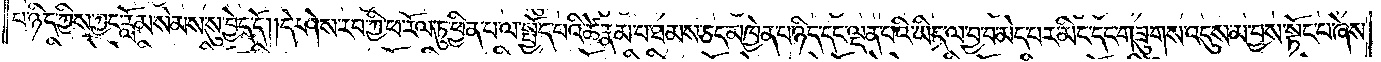པ་ཉིད་ཀྱིས་ཀྱང་རློམ་སེམས་སུ་བྱེད་དོ། །དེ་ཤེས་རབ་ཀྱི་ཕ་རོལ་ཏུ་ཕྱིན་པ་ལ་སྤྱོད་པའི་ཚེ་རྣམ་པ་ཐམས་ཅད་མཁྱེན་པ་ཉིད་དང་ལྡན་པའི་ཡིད་ལ་བྱ་བ་མེད་པར་མིང་དང་གཟུགས་འདུས་མ་བྱས་སྟོང་པ་ཞེས་
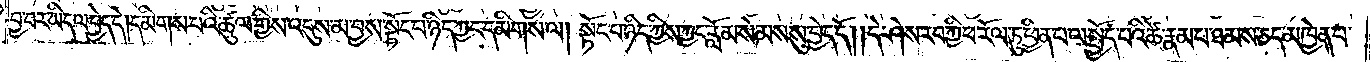བྱ་བར་ཡིད་ལ་བྱེད་དེ། དམིགས་པའི་ཚུལ་གྱིས་འདུས་མ་བྱས་སྟོང་པ་ཉིད་ཀྱང་དམིགས་ལ། སྟོང་པ་ཉིད་ཀྱིས་ཀྱང་རློམ་སེམས་སུ་བྱེད་དོ། །དེ་ཤེས་རབ་ཀྱི་ཕ་རོལ་ཏུ་ཕྱིན་པ་ལ་སྤྱོད་པའི་ཚེ་རྣམ་པ་ཐམས་ཅད་མཁྱེན་པ་
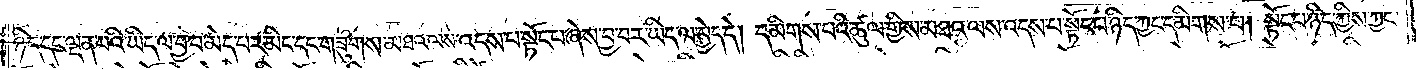ཉིད་དང་ལྡན་པའི་ཡིད་ལ་བྱ་བ་མེད་པར་མིང་དང་གཟུགས་མཐའ་ལས་འདས་པ་སྟོང་པ་ཞེས་བྱ་བར་ཡིད་ལ་བྱེད་དེ། དམིགས་པའི་ཚུལ་གྱིས་མཐའ་ལས་འདས་པ་སྟོང་པ་ཉིད་ཀྱང་དམིགས་པ། སྟོང་པ་ཉིད་ཀྱིས་ཀྱང་
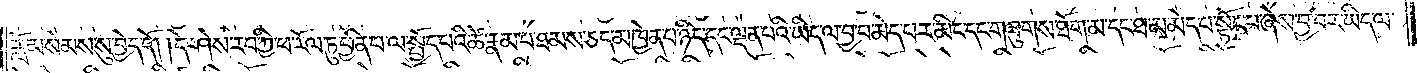རློམ་སེམས་སུ་བྱེད་དོ། །དེ་ཤེས་རབ་ཀྱི་ཕ་རོལ་ཏུ་ཕྱིན་པ་ལ་སྤྱོད་པའི་ཚེ་རྣམ་པ་ཐམས་ཅད་མཁྱེན་པ་ཉིད་དང་ལྡན་པའི་ཡིད་ལ་བྱ་བ་མེད་པར་མིང་དང་གཟུགས་ཐོག་མ་དང་ཐ་མ་མེད་པ་སྟོང་པ་ཞེས་བྱ་བར་ཡིད་ལ་
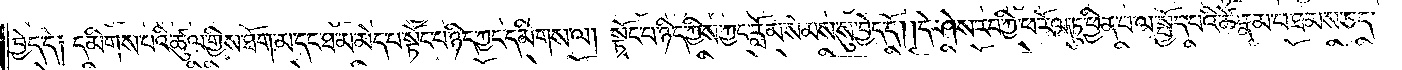བྱེད་དེ༑ དམིགས་པའི་ཚུལ་གྱིས་ཐོག་མ་དང་ཐ་མ་མེད་པ་སྟོང་པ་ཉིད་ཀྱང་དམིགས་ལ། སྟོང་པ་ཉིད་ཀྱིས་ཀྱང་རློམ་སེམས་སུ་བྱེད་དོ། །དེ་ཤེས་རབ་ཀྱི་ཕ་རོལ་ཏུ་ཕྱིན་པ་ལ་སྤྱོད་པའི་ཚེ་རྣམ་པ་ཐམས་ཅད་
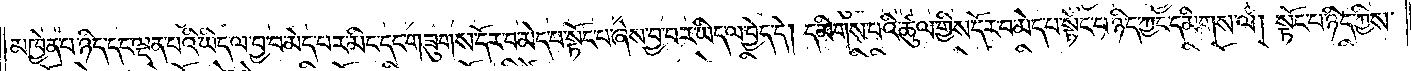མཁྱེན་པ་ཉིད་དང་ལྡན་པའི་ཡིད་ལ་བྱ་བ་མེད་པར་མིང་དང་གཟུགས་དོར་བ་མེད་པ་སྟོང་པ་ཞེས་བྱ་བར་ཡིད་ལ་བྱེད་དེ། དམིགས་པའི་ཚུལ་གྱིས་དོར་བ་མེད་པ་སྟོང་པ་ཉིད་ཀྱང་དམིགས་ལ། སྟོང་པ་ཉིད་ཀྱིས་
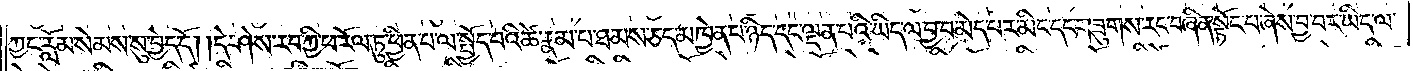ཀྱང་རློམ་སེམས་སུ་བྱེད་དོ། །དེ་ཤེས་རབ་ཀྱི་ཕ་རོལ་ཏུ་ཕྱིན་པ་ལ་སྤྱོད་པའི་ཚེ་རྣམ་པ་ཐམས་ཅད་མཁྱེན་པ་ཉིད་དང་ལྡན་པའི་ཡིད་ལ་བྱ་བ་མེད་པར་མིང་དང་གཟུགས་རང་བཞིན་སྟོང་པ་ཞེས་བྱ་བར་ཡིད་ལ་
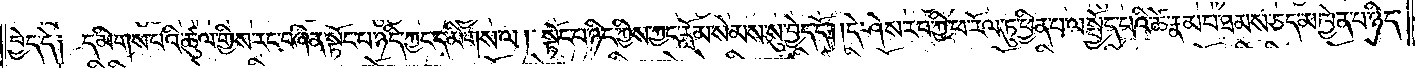བྱེད་དེ། དམིགས་པའི་ཚུལ་གྱིས་རང་བཞིན་སྟོང་པ་ཉིད་ཀྱང་དམིགས་ལ། སྟོང་པ་ཉིད་ཀྱིས་ཀྱང་རློམ་སེམས་སུ་བྱེད་དོ། །དེ་ཤེས་རབ་ཀྱི་ཕ་རོལ་ཏུ་ཕྱིན་པ་ལ་སྤྱོད་པའི་ཚེ་རྣམ་པ་ཐམས་ཅད་མཁྱེན་པ་ཉིད་
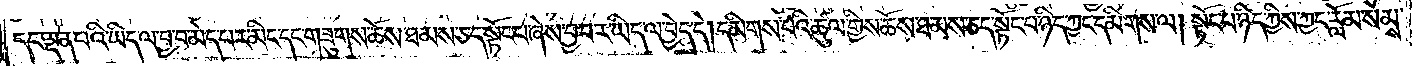དང་ལྡན་པའི་ཡིད་ལ་བྱ་བ་མེད་པར་མིང་དང་གཟུགས་ཆོས་ཐམས་ཅད་སྟོང་པ་ཞེས་བྱ་བར་ཡིད་ལ་བྱེད་དེ། དམིགས་པའི་ཚུལ་གྱིས་ཆོས་ཐམས་ཅད་སྟོང་པ་ཉིད་ཀྱང་དམིགས་ལ། སྟོང་པ་ཉིད་ཀྱིས་ཀྱང་རློམ་སེམས་
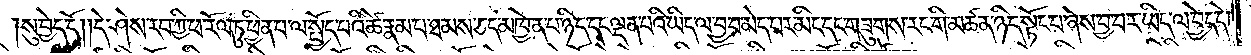སུ་བྱེད་དོ། །དེ་ཤེས་རབ་ཀྱི་ཕ་རོལ་ཏུ་ཕྱིན་པ་ལ་སྤྱོད་པའི་ཚེ་རྣམ་པ་ཐམས་ཅད་མཁྱེན་པ་ཉིད་དང་ལྡན་པའི་ཡིད་ལ་བྱ་བ་མེད་པར་མིང་དང་གཟུགས་རང་གི་མཚན་ཉིད་སྟོང་པ་ཞེས་བྱ་བར་ཡིད་ལ་བྱེད་དེ།
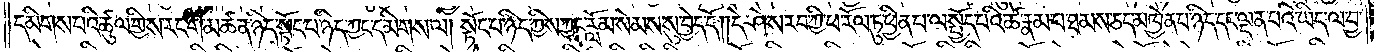དམིགས་པའི་ཚུལ་གྱིས་རང་གི་མཚན་ཉིད་སྟོང་པ་ཉིད་ཀྱང་དམིགས་ལ། སྟོང་པ་ཉིད་ཀྱིས་ཀྱང་རློམ་སེམས་སུ་བྱེད་དོ། །དེ་ཤེས་རབ་ཀྱི་ཕ་རོལ་ཏུ་ཕྱིན་པ་ལ་སྤྱོད་པའི་ཚེ་རྣམ་པ་ཐམས་ཅད་མཁྱེན་པ་ཉིད་དང་ལྡན་པའི་ཡིད་ལ་བྱ་
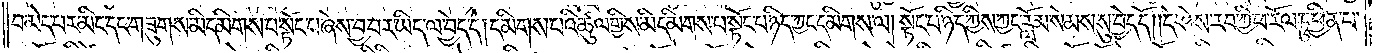བ་མེད་པར་མིང་དང་གཟུགས་མི་དམིགས་པ་སྟོང་པ་ཞེས་བྱ་བར་ཡིད་ལ་བྱེད་དེ། དམིགས་པའི་ཚུལ་གྱིས་མི་དམིགས་པ་སྟོང་པ་ཉིད་ཀྱང་དམིགས་ལ། སྟོང་པ་ཉིད་ཀྱིས་ཀྱང་རློམ་སེམས་སུ་བྱེད་དོ། །དེ་ཤེས་རབ་ཀྱི་ཕ་རོལ་ཏུ་ཕྱིན་པ་
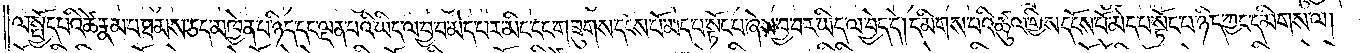ལ་སྤྱོད་པའི་ཚེ་རྣམ་པ་ཐམས་ཅད་མཁྱེན་པ་ཉིད་དང་ལྡན་པའི་ཡིད་ལ་བྱ་བ་མེད་པར་མིང་དང་གཟུགས་དངོས་པོ་མེད་པ་སྟོང་པ་ཞེས་བྱ་བར་ཡིད་ལ་བྱེད་དེ། དམིགས་པའི་ཚུལ་གྱིས་དངོས་པོ་མེད་པ་སྟོང་པ་ཉིད་ཀྱང་དམིགས་ལ།
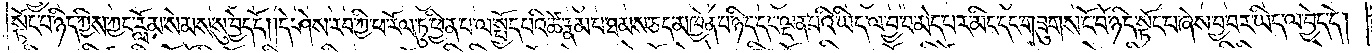སྟོང་པ་ཉིད་ཀྱིས་ཀྱང་རློམ་སེམས་སུ་བྱེད་དོ། །དེ་ཤེས་རབ་ཀྱི་ཕ་རོལ་ཏུ་ཕྱིན་པ་ལ་སྤྱོད་པའི་ཚེ་རྣམ་པ་ཐམས་ཅད་མཁྱེན་པ་ཉིད་དང་ལྡན་པའི་ཡིད་ལ་བྱ་བ་མེད་པར་མིང་དང་གཟུགས་ངོ་བོ་ཉིད་སྟོང་པ་ཞེས་བྱ་བར་ཡིད་ལ་བྱེད་དེ།
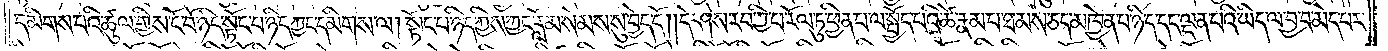དམིགས་པའི་ཚུལ་གྱིས་ངོ་བོ་ཉིད་སྟོང་པ་ཉིད་ཀྱང་དམིགས་ལ། སྟོང་པ་ཉིད་ཀྱིས་ཀྱང་རློམ་སེམས་སུ་བྱེད་དོ། །དེ་ཤེས་རབ་ཀྱི་ཕ་རོལ་ཏུ་ཕྱིན་པ་ལ་སྤྱོད་པའི་ཚེ་རྣམ་པ་ཐམས་ཅད་མཁྱེན་པ་ཉིད་དང་ལྡན་པའི་ཡིད་ལ་བྱ་བ་མེད་པར་
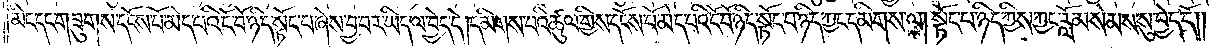མིང་དང་གཟུགས་དངོས་པོ་མེད་པའི་ངོ་བོ་ཉིད་སྟོང་པ་ཞེས་བྱ་བར་ཡིད་ལ་བྱེད་དེ། དམིགས་པའི་ཚུལ་གྱིས་དངོས་པོ་མེད་པའི་ངོ་བོ་ཉིད་སྟོང་པ་ཉིད་ཀྱང་དམིགས་ལ། སྟོང་པ་ཉིད་ཀྱིས་རློམ་སེམས་སུ་བྱེད་དོ༎
